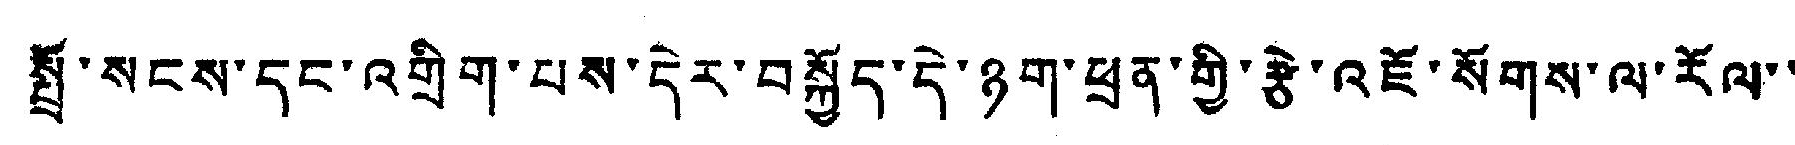སྤྲོ་སངས་དང་འགྲིག་པས་དེར་བསྐྱོད་དེ་ཉག་ཕྲན་གྱི་རྩེ་འཇོ་སོགས་ལ་རོལ་་
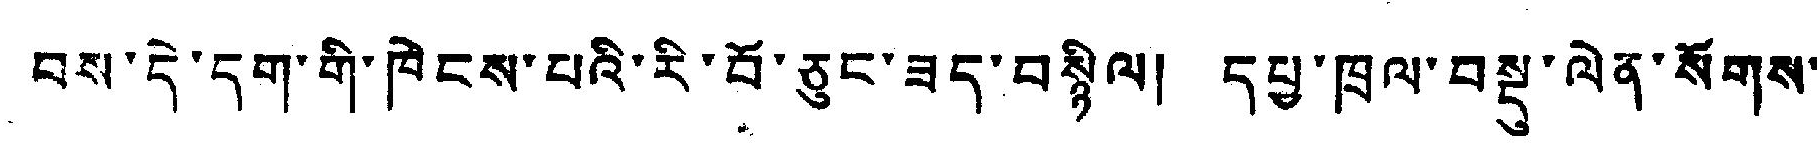བས་དེ་དག་གི་ཁེངས་པའི་རི་བོ་ཅུང་ཟད་བསྙིལ། དཔྱ་ཁྲལ་བསྡུ་ལེན་སོགས་
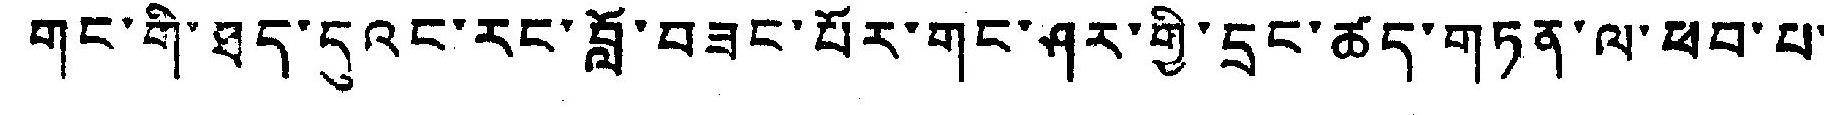གང་གི་ཐད་དུའང་རང་བློ་བཟང་པོར་གང་ཤར་གྱི་དྲང་ཚད་གཏན་ལ་ཕབ་པ་
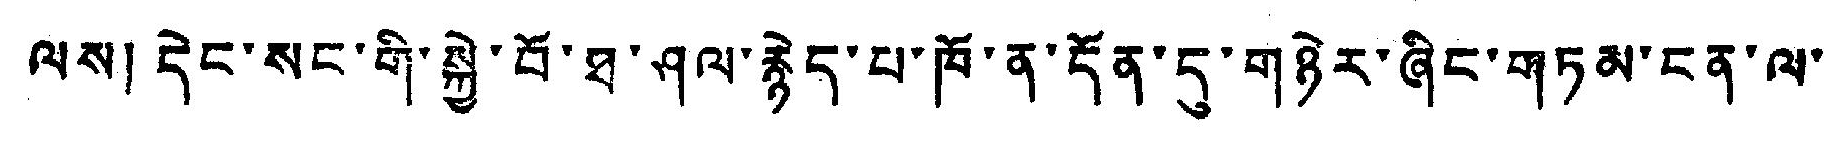ལས། དེང་སང་གི་སྐྱེ་བོ་ཐ་ཤལ་རྙེད་པ་ཁོ་ན་དོན་དུ་གཉེར་ཞིང་གཏམ་ངན་ལ་
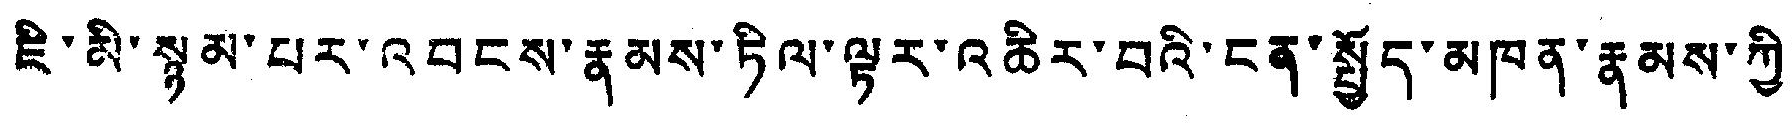ཇི་མི་སྙམ་པར་འབངས་རྣམས་ཏིལ་ལྟར་འཆིར་བའི་ངན་སྤྱོད་མཁན་རྣམས་ཀྱི་
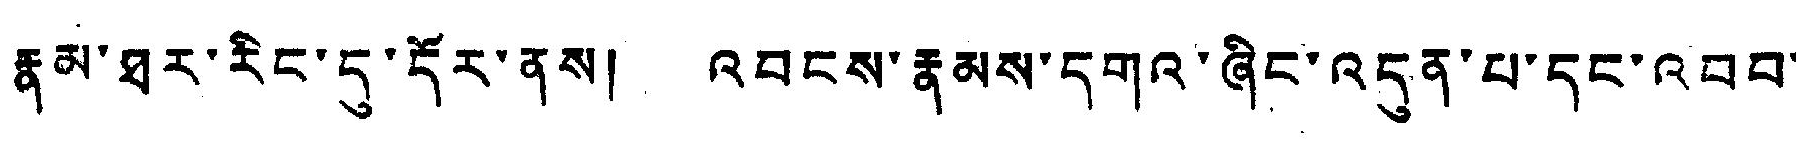རྣམ་ཐར་རིང་དུ་དོར་ནས། འབངས་རྣམས་དགའ་ཞིང་འདུན་པ་དང་འབབ་་
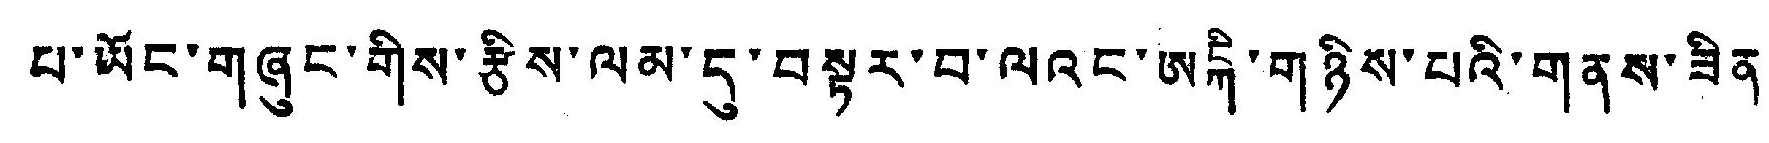པ་ཡོང་གཞུང་གིས་རྩིས་ལམ་དུ་བསྟར་བ་ལའང་ཨངྐི་གཉིས་པའི་གནས་ཟིན་་
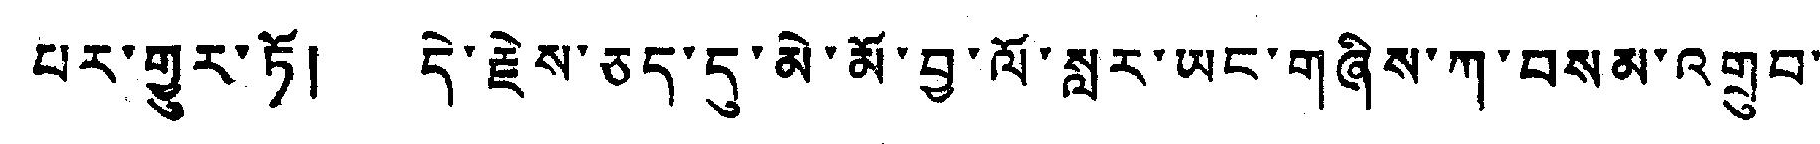པར་གྱུར་ཏོ། དེ་རྗེས་ཅད་དུ་མེ་མོ་བྱ་ལོ་སླར་ཡང་གཞིས་ཀ་བསམ་འགྲུབ་
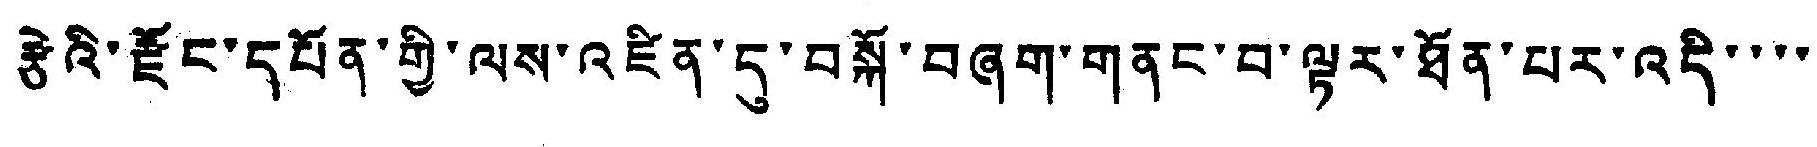རྩེའི་རྫོང་དཔོན་གྱི་ལས་འཛིན་དུ་བསྐོ་བཞག་གནང་བ་ལྟར་ཐོན་པར་འདི་་་་
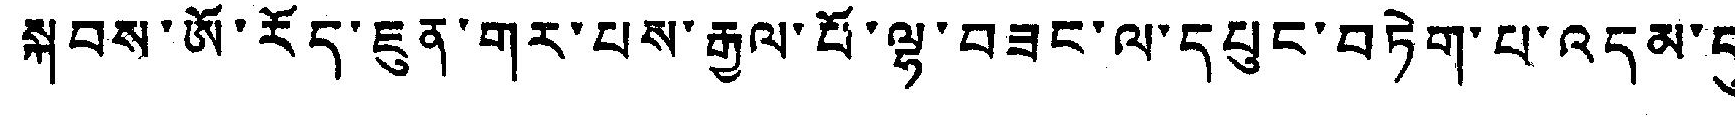སྐབས་ཨོ་རོད་ཇུན་གར་པས་རྒྱལ་པོ་ལྷ་བཟང་ལ་དཔུང་བཏེག་པ་འདམ་དུ་་
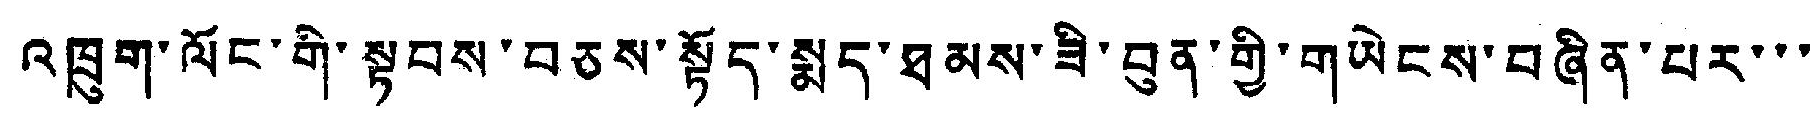འཁྲུག་ལོང་གི་སྟབས་བཅས་སྟོད་སྨད་ཐམས་ཟི་བུན་གྱི་གཡེངས་བཞིན་པར་་་
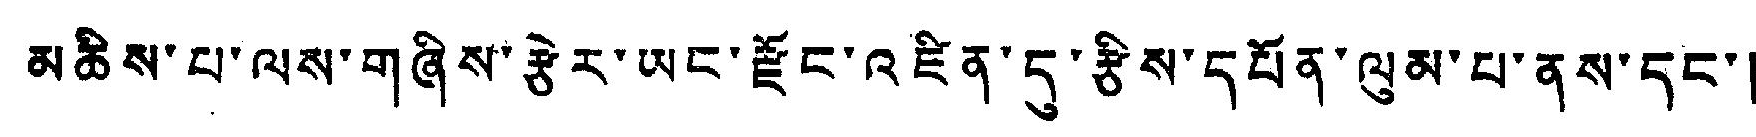མཆིས་པ་ལས་གཞིས་རྩེར་ཡང་རྫོང་འཛིན་དུ་རྩིས་དཔོན་ལུམ་པ་ནས་དང་།
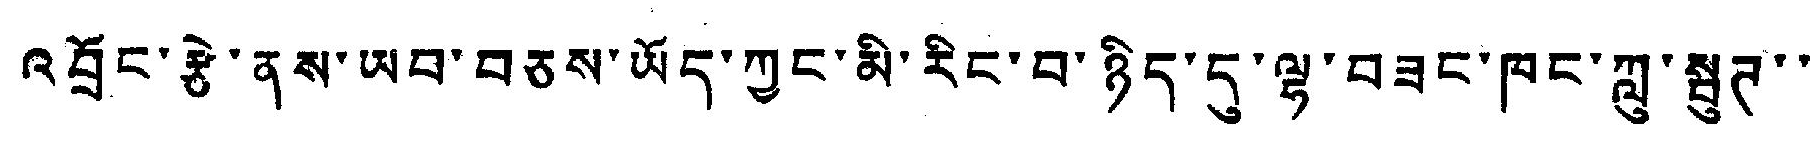འབྲོང་རྩེ་ནས་ཡབ་བཅས་ཡོད་ཀྱང་མི་རིང་བ་ཉིད་དུ་ལྷ་བཟང་ཁང་ཀླུ་སྦུཊ་་
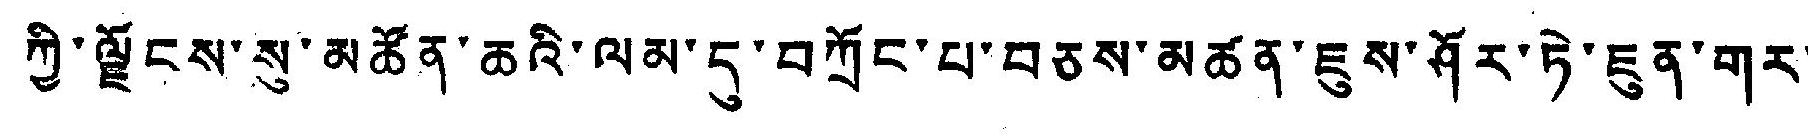ཀྱི་ལྗོངས་སུ་མཚོན་ཆའི་ལམ་དུ་བཀྲོང་པ་བཅས་མཚན་ཇུས་ཤོར་ཏེ་ཇུན་གར་་
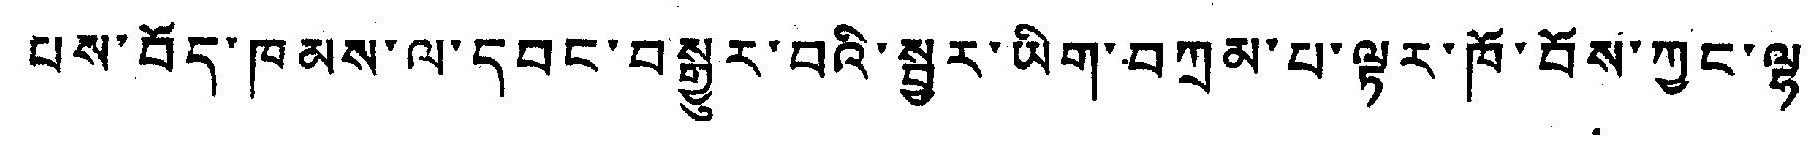པས་བོད་ཁམས་ལ་དབང་བསྒྱུར་བའི་སྦྱར་ཡིག་བཀྲམ་པ་ལྟར་ཁོ་བོས་ཀྱང་ལྷ་
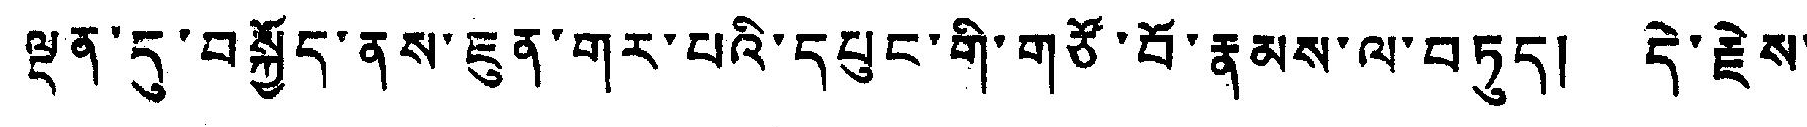ལྡན་དུ་བསྐྱོད་ནས་ཇུན་གར་པའི་དཔུང་གི་གཙོ་བོ་རྣམས་ལ་བཏུད། དེ་རྗེས་
